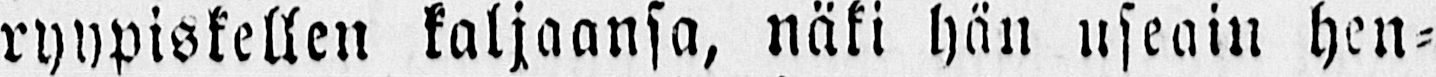ryypiskellen kaljaansa, näki hän useain hen-
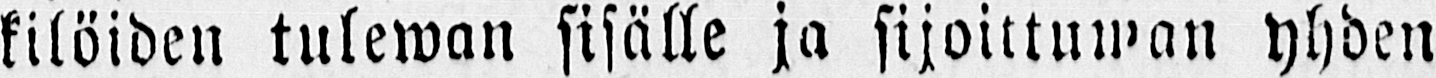kilöiden tulewan sisälle ja sijoittuwan yhden
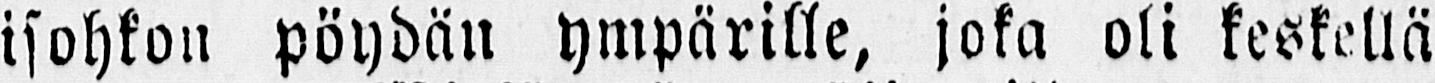isohkon pöydän ympärille, joka oli keskellä
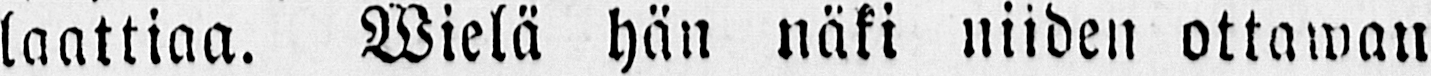laattiaa. Wielä hän näki niiden ottawan
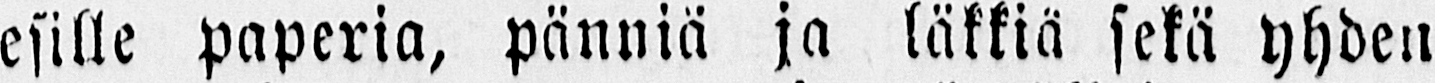esille paperia, pänniä ja läkkiä sekä yhden
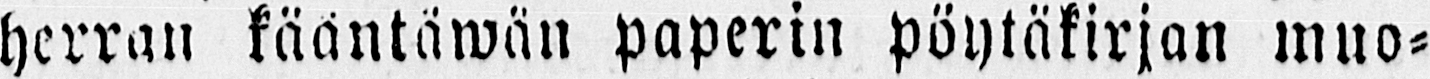herran kääntäwän paperin pöytäkirjan muo-
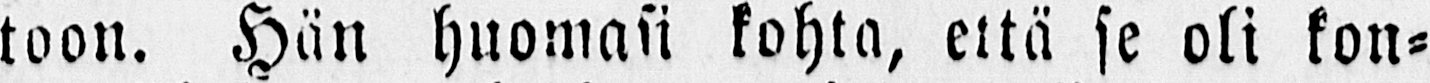toon. Hän huomasi kohta, että se oli kon-
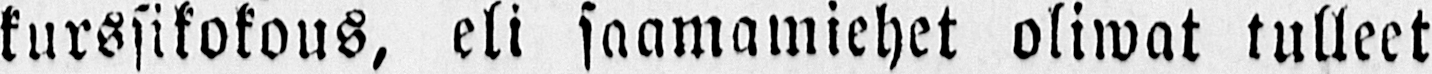kurssikokous, eli saamamiehet oliwat tulleet
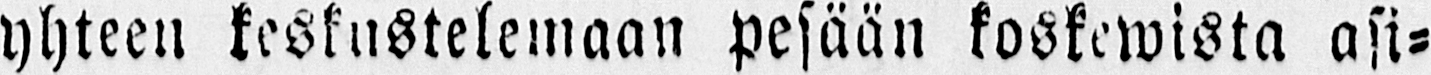yhteen keskustelemaan pesään koskewista asi-
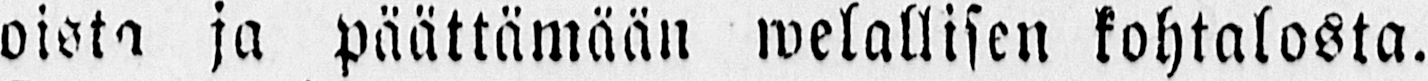oista ja päättämään welallisen kohtalosta.
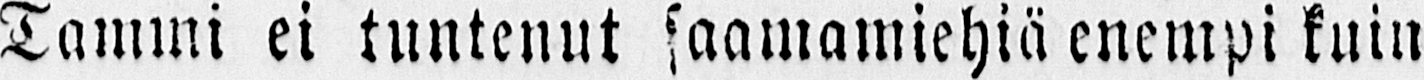Tammi ei tuntenut saamamiehiä enempi kuin
